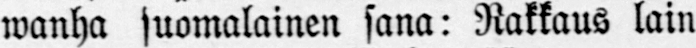wanha suomalainen sana: Rakkaus lain
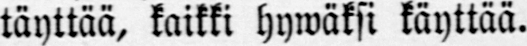täyttää, kaikki hywäksi käyttää.
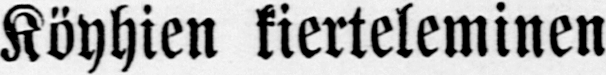Köyhien kierteleminen
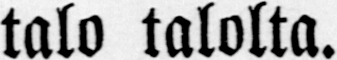talo talolta.
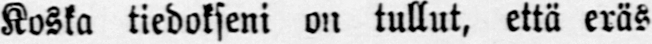Koska tiedokseni on tullut, että eräs
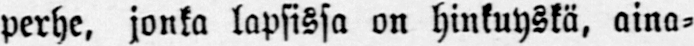perhe, jonka lapsissa on hinkuyskä, aina-
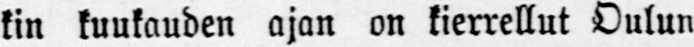kin kuukauden ajan on kierrellut Oulun
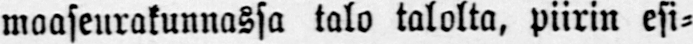maaseurakunnassa talo talolta, piirin esi-
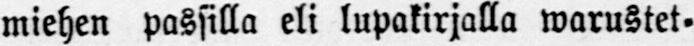miehen passilla eli lupakirjalla warustet-
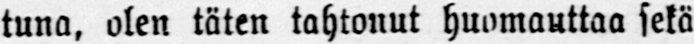tuna, olen täten tahtonut huomauttaa sekä
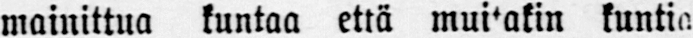mainittua kuntaa että muitakin kuntia
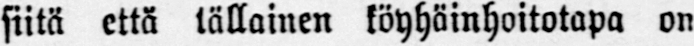siitä että tällainen köyhäinhoitotapa on
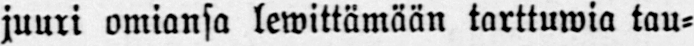juuri omiansa lewittämään tarttuwia tau-
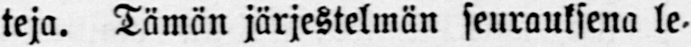teja. Tämän järjestelmän seurauksena le-
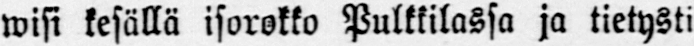wisi kesällä isorokko Pulkkilassa ja tietysti
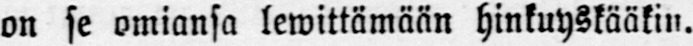on se omiansa lewittämään hinkuyskääkin.
